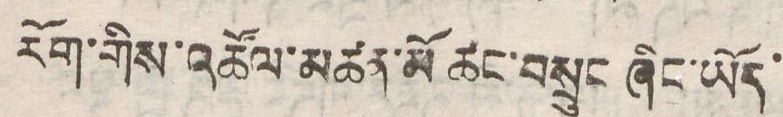རོག་གིས་འཚོལ་མཚན་མོ ཚང་བསྲུང ཞིང་ཡོད་་
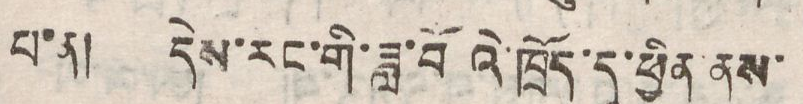པ་ན། དེས་རང་གི་ཟླ་བོའི་ཁྲོད་དུ་ཕྱིན་ནས་
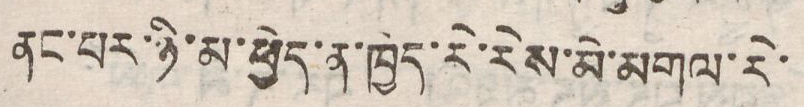ནང་པར་ཉི་མ་ཕྱེད་ན་ཁྱེད་རེ་རེས་མེ་མགལ་རེ་
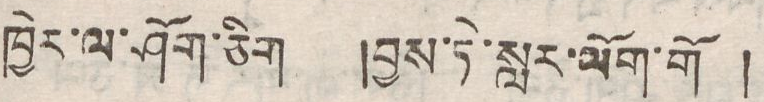ཁྱེར་ལ་ཤོག་ཅིག །བྱས་ཏེ་སླང་ལོག་གོ །
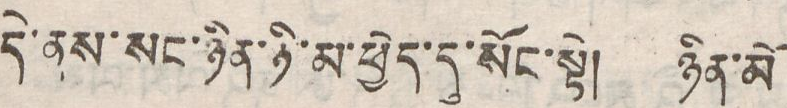དེ་ནས་སང་ཉིན་ཉི་མ་ཕྱེད་དུ་སོང་སྟེ། ཉིན་མོ
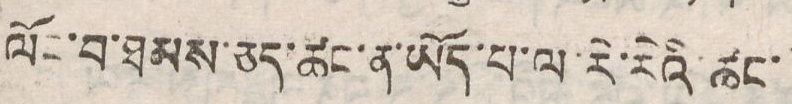ལོང་བ་ཐམས་ཅད་ཚང་ན་ཡོད་པ་ལ་རེ་རེའི་ཚང་
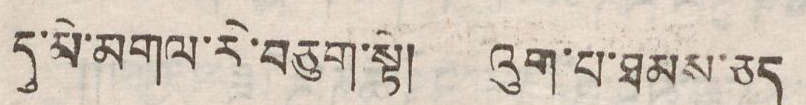དུ་མེ་མགལ་རེ་བཅུག་སྟེ། འུག་པ་ཐམས་ཅད
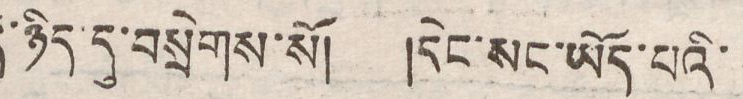དེ་ཉིད་དུ་བསྲེགས་སོ། །དེང་སང་ཡོད་པའི་
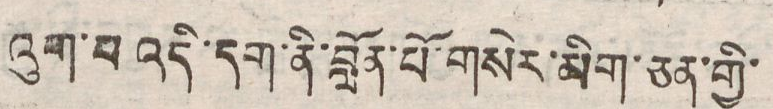འུག་པ་འདི་དག་ནི་བློན་པོ་གསེར་མིག་ཅན་གྱི་
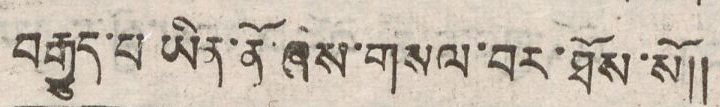བརྒྱུད་པ ཡིན་ནོ་ཞེས་གསལ་བར་ཐོས་སོ།།
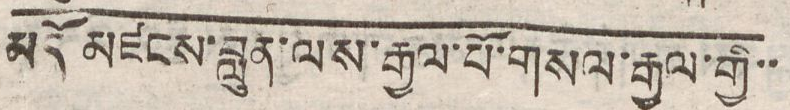མདོ མཛངས་བླུན་ལས་རྒྱལ་པོ་གསལ་རྒྱལ་གྱི་་
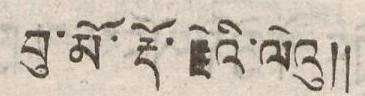བུ་མོ་རྡོ་རྗེའི་ལེའུ།།
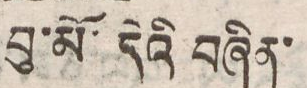བུ་མོ་དེའི བཞིན་
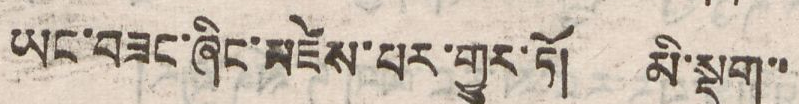ཡང་བཟང་ཞིང་མཛེས་པར་གྱུར་ཏོ། མི་སྡུག་་
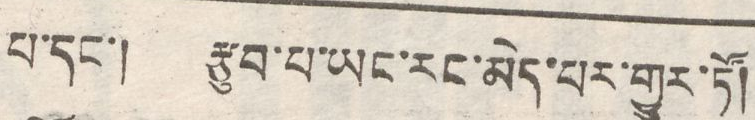པ་དང་། རྩུབ་པ་ཡང་རང་མེད་པར་གྱུར་ཏོ།
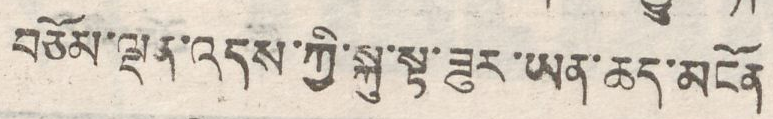བཅོམ་ལྡན་འདས་ཀྱི་སྐུ་སྟ་ཟུར་ཡན་ཆད་མངོན
